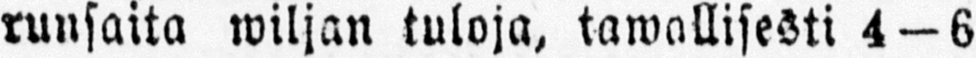runsaita wiljan tuloja, tawallisesti 4 —6
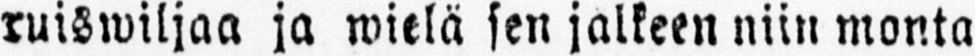ruiswiljaa ja wielä sen jälkeen niin monta
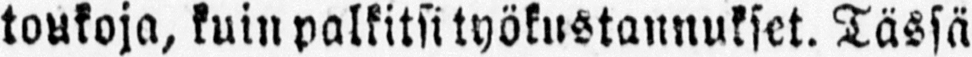toukoja, kuin palkitsi työkustannukset. Tässä
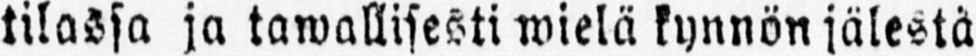tilassa ja tawallisesti wielä kynnön jälestä
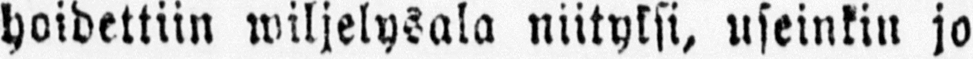hoidettiin wiljelysala niityksi, useinkin jo
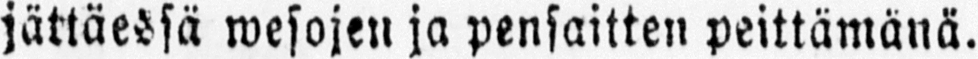jättäessä wesojen ja pensaitten peittämänä.
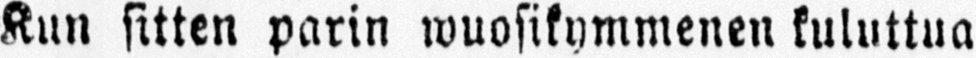Kun sitten parin wuosikymmenen kuluttua
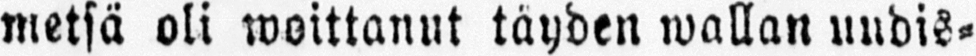metsä oli woittauut täyden wallan uudis-
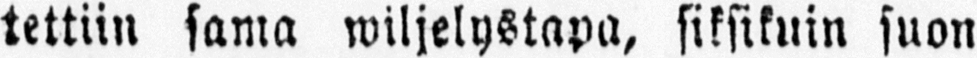tettiin sama wiljelystapa, siksikuin suon
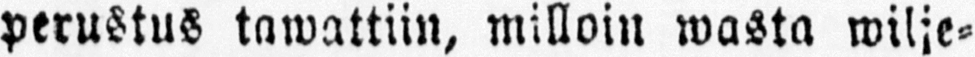perustus tawattiin, milloin wasta wilje-
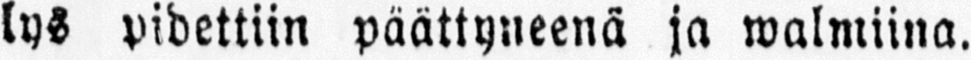lys pidettiin päättyneenä ja walmiina.
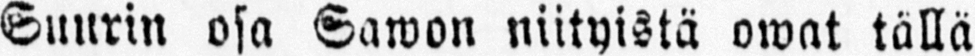Suurin osa Sawon niityistä owat tällä
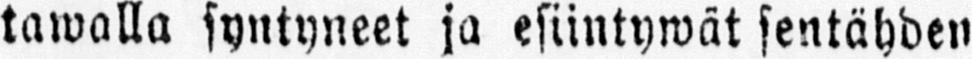tawalla syntyneet ja esiintywät sentähden
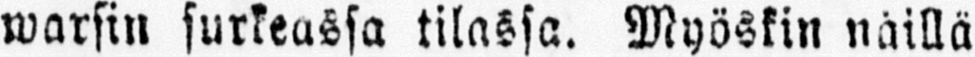warsin surkeassa tilassa. Myöskin näillä
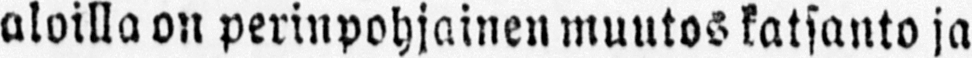aloilla on perinpohjainen muutos katsanto ja
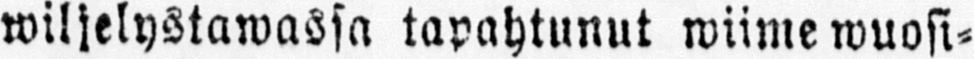wiljelystawassa tapahtunut wiime wuosi-
